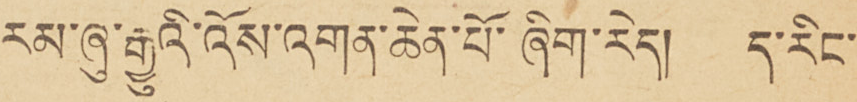རམ་ཞུ་རྒྱུའི་འོས་འགན་ཆེན་ཞིག་རེད། ད་རིང་
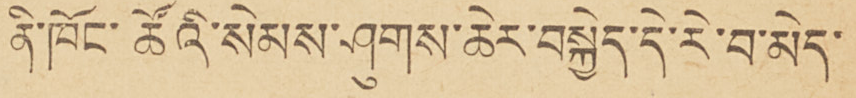ནི་ཁོང་ཚོའི་སེམས་ཤུགས་ཆེར་བསྐྱེད་དེ་རེ་བ་མེད་
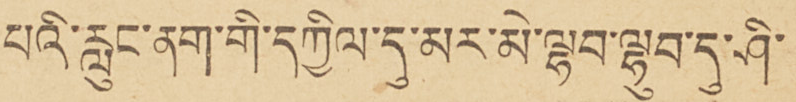པའི་རླུང་ནག་གི་དཀྱིལ་དུ་མར་མེ་ལྷབ་ལྷུབ་དུ་ཤི་
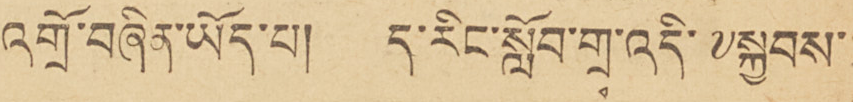འགྲོ་བཞིན་ཡོད་པ། ད་རིང་སློབ་གྲྭ་འདི་༸སྐྱབས་
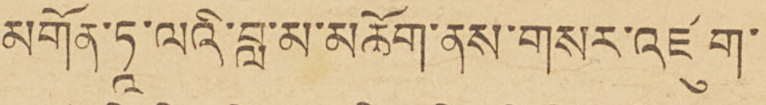མགོན་ཏཱ་ལའི་བླ་མ་མཆོག་ནས་གསར་འཛུག་
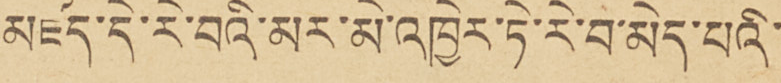མཛད་དེ་རེ་བའི་མར་མེ་འཁྱེར་ཏེ་རེ་བ་མེད་པའི་
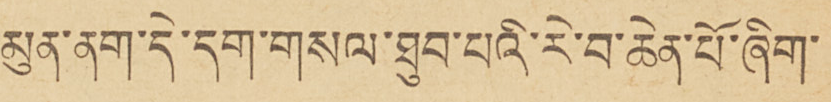མུན་ནག་དེ་དག་གསལ་ཐུབ་པའི་རེ་བ་ཆེན་པོ་ཞིག་
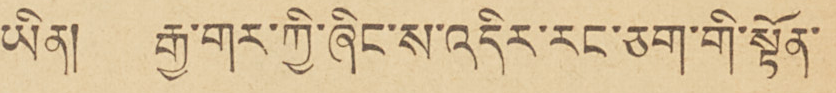ཡིན། རྒྱ་གར་ཀྱི་ཞིང་ས་འདིར་རང་ཅག་གི་སྟོན་
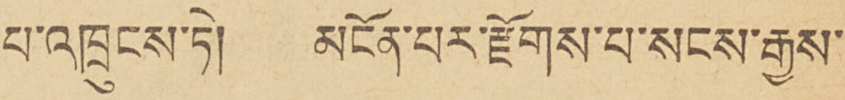པ་འཁྲངས་ཏེ། མངོན་པར་རྫོགས་པ་སངས་རྒྱས་
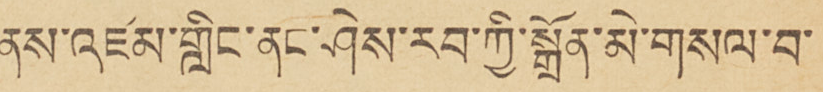ནས་འཛམ་གླིང་ནང་ཤེས་རབ་ཀྱི་སྒྲོན་མེ་གསལ་བ་
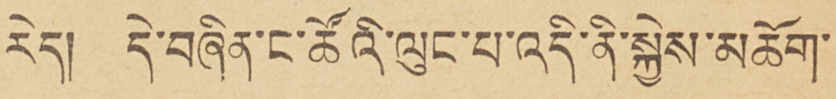རེད། དེ་བཞིན་ང་ཚོའི་ལུང་པ་འདི་ནི་སྐྱེས་མཆོག་
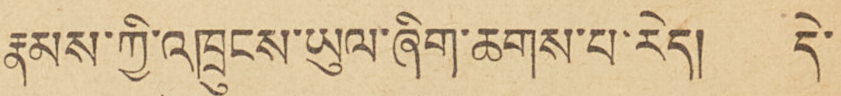རྣམས་ཀྱི་འཁྲུངས་ཡུལ་ཞིག་ཆགས་པ་རེད། དེ་
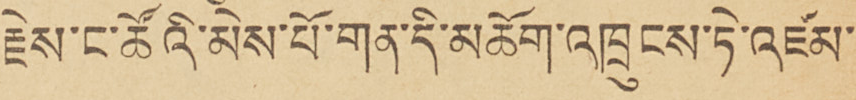རྗེས་ང་ཚོའི་མེས་པོ་གན་དི་མཆོག་འཁྲུངས་ཏེ་འཛམ་
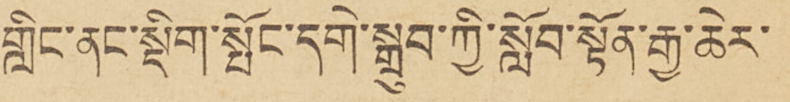གླིང་ནང་སྡིག་སྤོང་དགེ་སྒྲུབ་ཀྱི་སློབ་སྟོན་རྒྱ་ཆེར་
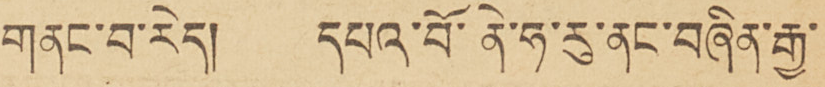གནང་བ་རེད། དཔའ་བོ་ནི་ཧ་རུ་ནང་བཞིན་རྒྱ་
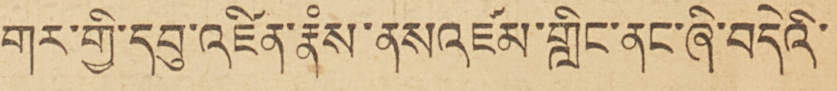གར་གྱི་དབུ་འཛིན་རྣཾས་ནས་འཛམ་གླིང་ནང་ཞི་བདེའི་
